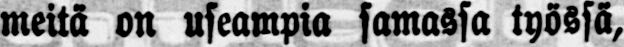meitä on useampia samassa työssä,
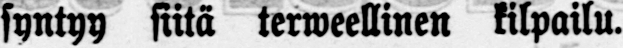syntyy siitä terweellinen kilpailu.
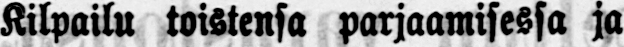Kilpailu toistensa parjaamisessa ja
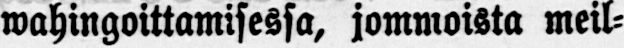wahingoittamisessa, jommoista meil-
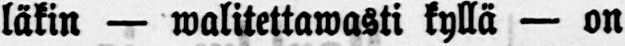läkin — walitettawasti kyllä — on
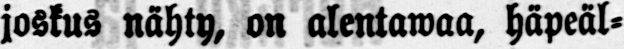joskus nähty, on alentawaa, häpeäl-
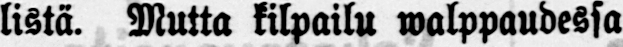listä. Mutta kilpailu walppaudessa
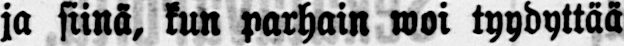ja siinä, kun parhain woi tyydyttää
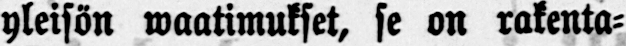yleisön waatimukset, se on rakenta-
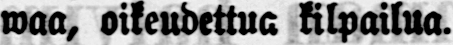waa, oikeudettua kilpailua.
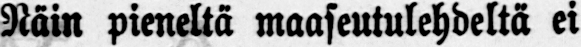Näin pieneltä maaseutulehdeltä ei
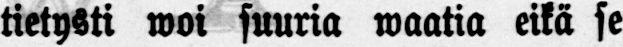tietysti woi suuria waatia eikä se
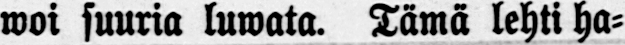woi suuria luwata. Tämä lehti ha-
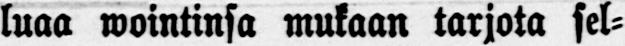luaa woinitnsa mukaan tarjota sel-
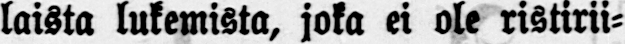laista lukemista, joka ei ole ristirii-
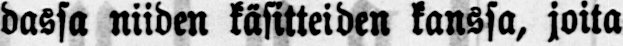dassa niiden käsitteiden kanssa, joita
